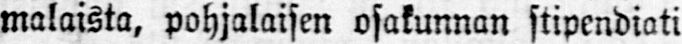malaista, pohjalaisen osakunnan stipendiati
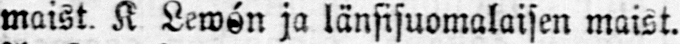maist. K Lewén ja länsisuomalaisen maist.
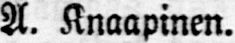A. Knaapinen.
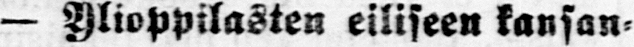— Ylioppilasten eiliseen kansan-
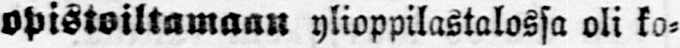opistoiltamaan ylioppilastalossa oli ko-
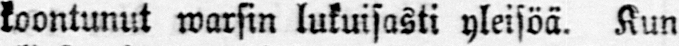koontunut warsin lukuisasti yleisöä. Kun
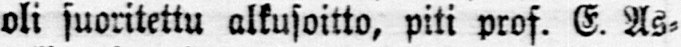oli suoritettu alkusoitto, piti prof. E. As-
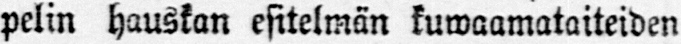pelin hauskan esitelmän kuwaamataiteiden
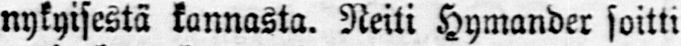nykyisestä kannasta. Neiti Hymander soitti
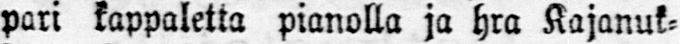pari kappaletta pianolla ja hra Kajanuk-
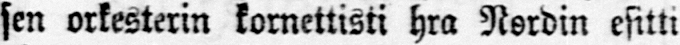sen orkesterin kornettisti hra Nordin esitti
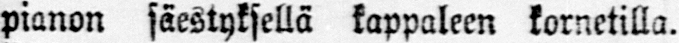pianon säestyksellä kappaleen kornetilla.
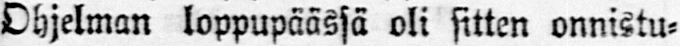Ohjelman loppupäässä oli sitten onnistu-
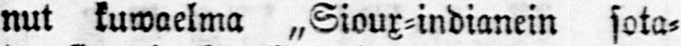nut kuwaelma „Sioux-indianein sota-
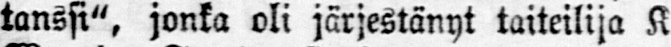tanssi", jonka oli järjestänyt taiteilija K
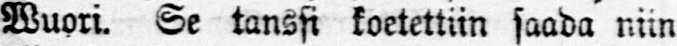Wuori. Se tanssi koetettiin saada niin
